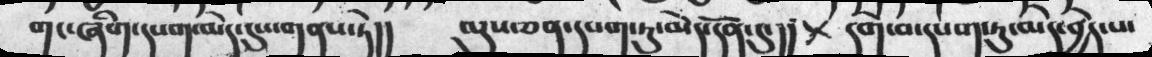གང་ཞིག་དཔག་མེད་དུས་གནས་ཏེ།།   ལུས་ཅན་དཔག་ཏུ་མེད་དོན་དུ་།།   དགེ་བ་དཔག་ཏུ་མེད་བྱེད་པ་
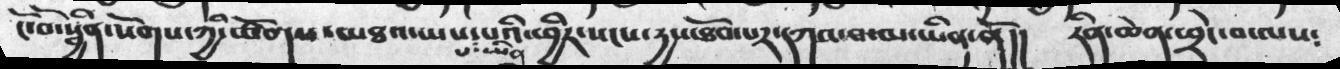ངོ་བོ་སྦྱིན་སོགས་ཀྱི་ཚོགས་མཐའ་ཡས་པ་ཡིན་པའི་ཕྱིར་སངས་དྱས་ཐོབ་པར་དཀའ་བ་མ་ཡིན་ནོ།།   རིན་ཆེན་ཕྲེང་བ་ལས༴
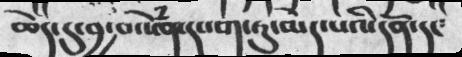ཆེད་དུ་བྱ་བ་སེནཾ་དཔག་ཏུ་མེད་པའི་དོན་དང༴
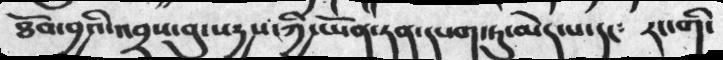ཐོབ་བྱའི་འབྲས་བུ་སརྒྱས་ཀྱི་ཡོན་ཏན་དཔག་ཏུ་མེད་པ་དང༴   རང་གི་
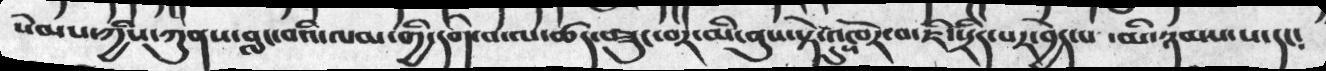སེམས་ཀྱིས་ཀུནས་བླང་བའི་ལམ་གྱི་དགེ་བ་ལ་ཚད་བཟུང་བར་མི་ནུས་སྟེ་དུས་འཁོར་བ་ཇི་སྲིད་པར་བྱེད་པ་  མི་ཉམས་པ་དང༴
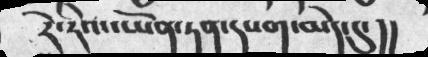རེ་རེའང་ཡོན་ཏན་དཔག་མེད་དུ་།།
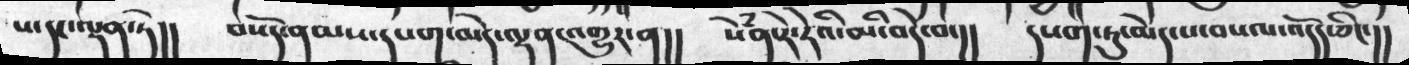ས་དང་ལྡན་ཏེ།།     བསོད་ནམས་དཔག་མེད་ལྡན་འགྱུར་ན།།  སེནཾ་རེ་རེའི་མི་བདེ་བ་།།    དཔག་ཏུ་མེད་པ་བསལ་འདོད་ཅིང་།།
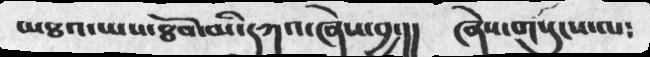མཐའ་ཡས་ཐོབ་མི་དཀའ་ཞེས་བྱ་།།  ཞེས་གསུངས་ལ༴
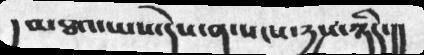།  མཐའ་ཡས་དེས་ན་སངས་དྱས་ཉིད་།།
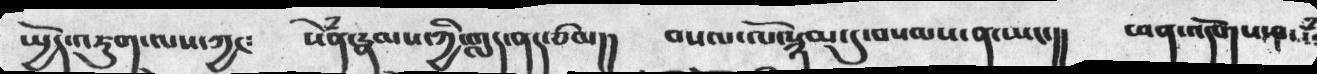སྤྱོད་འཇུག་ལས་ཀྱང༴  སེཾན་རྣམས་ཀྱི་གླད་ནད་ཙམ།།  བསལ་ལོ་སྙམ་དུ་བསམས་ན་ཡང་།།   ཕན་འདོགས་བསཾ
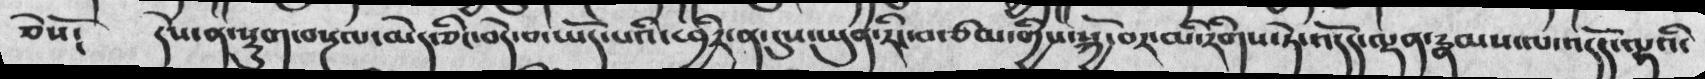ཅེསོ༴  དེས་ན་སྡུག་བསྔལ་མེད་ཅིང་བདེ་བ་ཡོད་པའི་ཕྱིར་ན་དུས་ཡུན་རིང་བ་ཙམ་གྱིས་སྐྱོ་བར་མི་རིགས་ཏེ་འདོད་ལྡན་རྣམས་ལ་འདོད་ལྟའི་
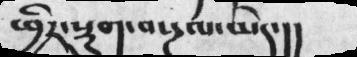ཕྱིར་སྡུག་བསྔལ་མེད་།།
